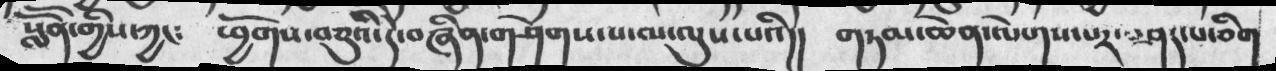སློོན་གྱིས་ཀྱང༴ ཕྱོགས་བཅུའི་དེ་བཞིན་གཤེགས་པ་མ་ལུས་པའི།། གཏམ་ཆེན་ལེགས་པར་བཤད་པ་ཅིག
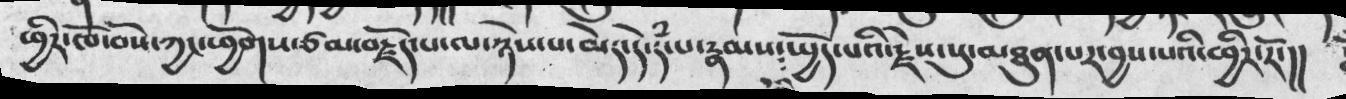ཕྱིར་ཁོ་བོས་ཀྱང་ཕྱོགས་ཙམ་བརྗོད་པ་ལ་ཉེས་པ་མེད་དེ་དཾ་པ་རྣམས་སྤྱོད་པའི་རྗེས་སུ་མཐུན་པར་བྱས་པའི་ཕྱིར་རོ་།།
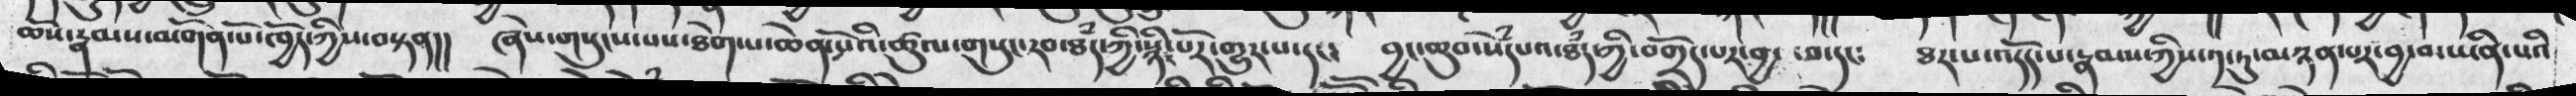ཆོས་རྣམས་མགོན་པོ་ཁྱོད་ཀྱིས་བསྟན།། ཞེས་གསུངས་པས་ཐེག་པ་ཆེན་པོའི་ཚུལ་གསུང་རབ་ཐཾད་ཀྱི་སྙིང་པོར་གྱུར་པ་དང་ བྱང་ཆུབ་སེཾདཔའ་ཐཾད་ཀྱི་བགྲོད་པར་བྱ་བ་དང༴ ཐར་པ་འདོད་པ་རྣམས་ཀྱིས་༡་ཏུ་མཉན་པར་བྱ་བ་ཡིན་པའི
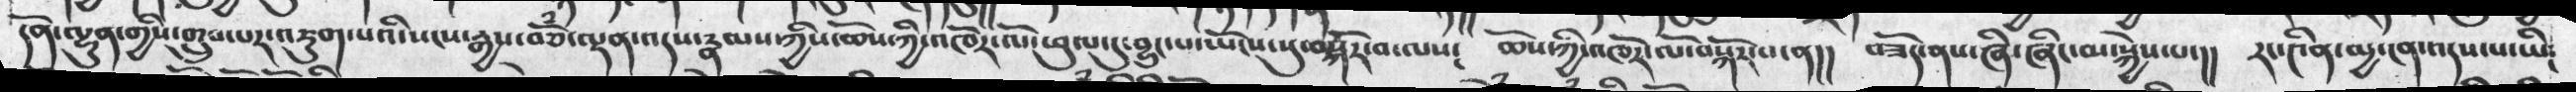དོན་ལྷུན་གྱིས་གྲུབ་པར་འཇུག་པའི་སངས་རྒྱས་བཅོཾ་ལྡན་འདས་རྣམས་ཀྱིས་ཆོས་ཀྱི་འཁོར་ལོ་ཕུལ་དུ་བྱུང་པ་ཡོངས་སུ་བསྐོར་བ་ལས༴ ཆོས་ཀྱི་འཁོར་ལོ་བསྐོར་པ་ན།། བཟོད་ནས་ཞི་ཞིང་མ་སྐྱེས་པ་།། རང་༤ིན་མྱ་ངན་འདས་པ་ཡི༴
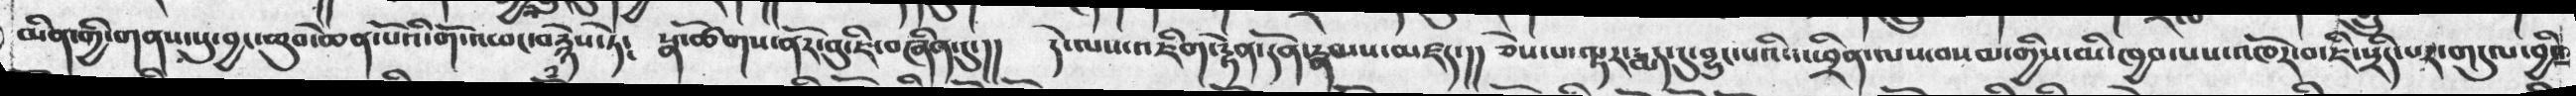མིན་གྱི་གནས་སུ་བྱང་ཆུབ་ཆེན་པོའི་གོ་འཕང་བརྙེས་ཏེ༴ སྣ་ཚོགས་ནོར་བུ་ཇི་བཞིན་དུ་།། དེ་ལས་འཇིག་རྟེན་དོན་རྣམས་མཛད་།། ཅེས་པ་ལྟར་རྨད་དུ་བྱུང་པའི་འཕྲིན་ལས་བསམ་གྱིས་མི་ཁྱབ་པས་འཁོར་བ་ཇི་སྲིད་པར་གདུལ་བྱའི
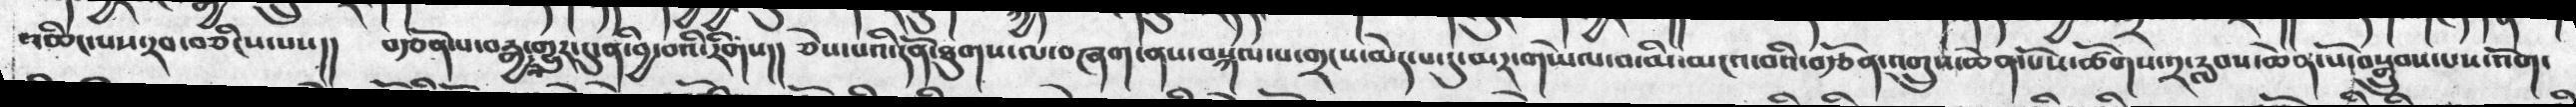འཆིང་པས་རབ་བཅིངས་པས།། བརྩོན་པ་བརྒྱ་གྱུར་དུ་ན་བྱི་བའི་རིགས།། ཅེས་པའི་དོན་ཐུགས་ལ་བཞག་ནས་བསྐལ་པ་གྲངས་མེད་པ་དུ་མར་གཡེར་བ་མི་མངའ་བའི་བརྩོན་འགྲུས་ཆེན་པོས་ཚོགས་༢་རླབས་ཆེན་པོ་བསྒྲུབས་པས་འོག་
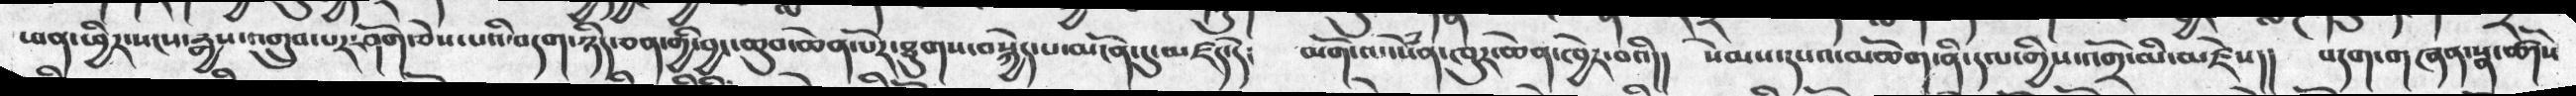ཕན་ཕྱིར་སངས་རྒྱས་འགྲུབ་པར་ཤོག་ཅེས་པའི་བདག་ཉིད་ཅན་གྱི་བྱང་ཆུབ་ཆེན་པོར་ཐུགས་བསྐྱེད་པ་མངོན་དུ་མཛད་དེ༴  མགོ་ལ་སེཾན་ཁུར་ཆེན་ཁྱེར་བའི།།  སེམས་དཔའ་མཆོག་ནི་དལ་གྱིས་འགྲོ་མི་མཛེས།། བདག་གཞན་སྣ་ཚོགས
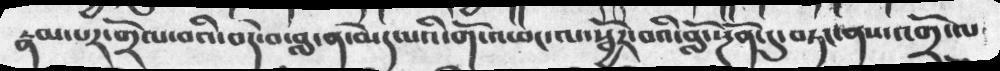རྣམ་པར་གྲོལ་བའི་བདེ་བ་བླ་ན་མེད་པའི་གོ་འཕང་ལ་སྦྱོར་བའི་བློ་སྔོན་དུ་བཏང་ནས་འགྲོ་ལ
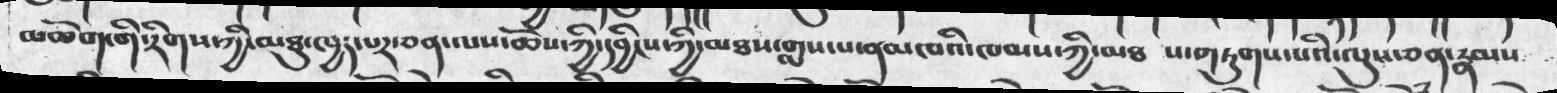མཆོག་གི་རིགས་ཀྱི་མཐུ་ཁྱད་པར་ཅན་ལས་ཆོས་ཀྱི་དབྱིངས་ཀྱི་མཐས་གླས་པ་ནམཁའི་ཁམས་ཀྱི་མཐ ས་གཏུགས་པའི་ལུས་ཅན་རྣམས
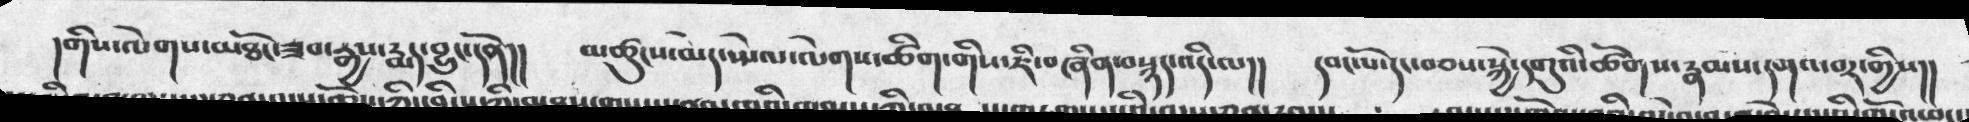།གིས་ལེགས་མཐོང་ཟབ་རྒྱས་རྨད་བྱུང་དོན།།   མཚུངས་མེད་སྤེལ་ལེགས་ཚིག་གིས་ཇི་མཞིན་བསྙད་འདི་ལ།།     དབང་པོ་དང་བཅས་སྐྱེ་དགུའི་ཚོགས་རྣམས་དགའ་བར་གྱིས།།
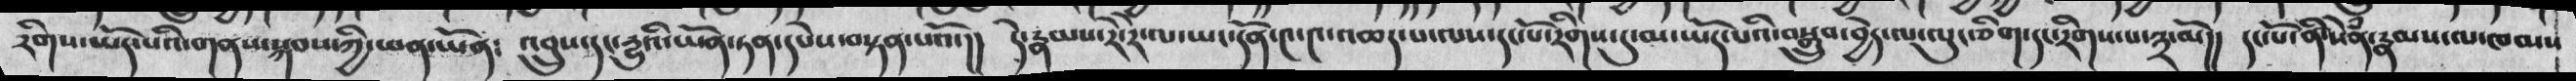རིགས་ཡོད་པའི་གནས་སྐབས་ཀྱི་ཕན་ཡོན༴ འབྲུས་དང་རྒྱུའི་ཡོན་ཏན་དཔེས་བསྟན་པའོ་།།  དེ་རྣམས་རེ་རེ་ལ་ཡང་དོན་༤་༤་འཆད་པ་ལས་དང་པོ་རིགས་དུ་མ་ཡོད་པའི་བསྒྲུབ་བྱེད་ལ་ལུང་ཅིག་དང་རིགས་པ་༣་མོ།། དང་པོ་ནི་སེཾན་རྣམས་ལ་ཁམས
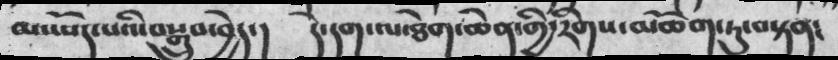མ་ཡོད་པའི་བསྒྲུབ་བྱེད་། དེ་དག་ལ་ཐེག་ཆེན་གྱི་རིགས་མཆོག་ཏུ་བསྟན༴
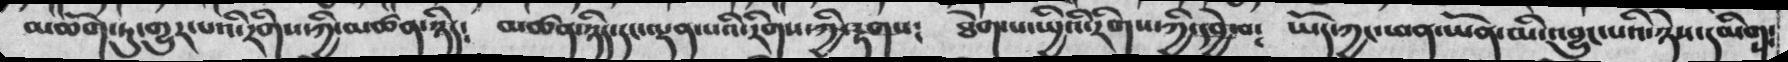མཆོག་རུ་གྱུར་པའི་རིགས་ཀྱི་མཚན་ཉིད༴     མཚན་ཉིད་དང་ལྡན་པའི་རིགས་ཀྱི་རྟགས༴   ཐག་པ་ཡྱིའི་རིགས་ཀྱི་དབྱེ་བ༴   ཡོད་ཀྱང་ཕན་ཡོན་མི་འབྱུང་པའི་ཉེས་དམིགས་
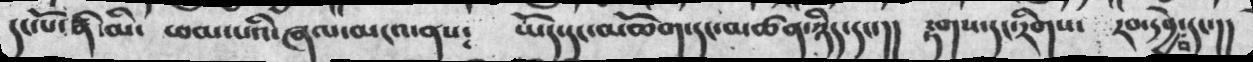དང་པོ་ནི་མི་   ཕམ་པའི་ཞལ་མངའ་ནས༴    ཡོད་དང་མཆོག་དང་མཚན་ཉིད་དང་།།    རྟགས་དང་རིགས་   རབ་དབྱེ་བ་དང་།།
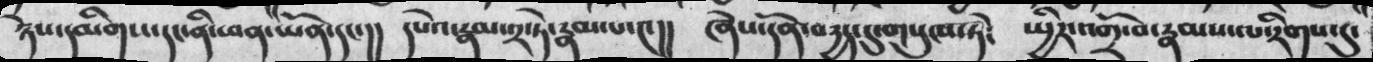ཉེས་དམིགས་དང་ནི་ཕན་ཡོན་དང་།།  དཔེའ་རྣམ་༢་ཏེ་རྣམ་པ་༤།།  ཞེས་དོན་བརྱད་དུ་གསུངས་ཏེ༴  སྤྱིར་འགྲོ་བ་རྣམས་ལ་རིགས་དུ་
